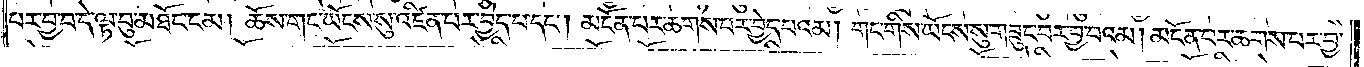པར་བྱ་བ་དེ་ལྟ་བུ་མཐོང་ངམ། ཆོས་གང་ཡོངས་སུ་འཛིན་པར་བྱད་པ་དང༌། མངོན་པར་ཆགས་བར་བྱེད་པའམ། གང་གིས་ཡོངས་སུ་གཟུང་བར་བྱ་བའམ། མངོན་པར་ཆགས་པར་བྱ་
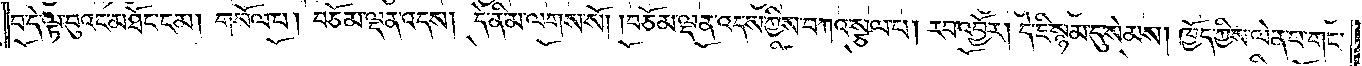བ་དེ་ལྟ་བུའང་མཐོང་ངམ། གསོལ་པ། བཅོམ་ལྡན་འདས། དེ་ནི་མ་ལགས་སོ། །བཅོམ་ལྡན་འདས་ཀྱིས་བཀའ་སྩལ་པ། རབ་འབྱོར། དེ་ཇི་སྙམ་དུ་སེམས། ཁྱོད་ཀྱིས་ལེན་པ་གང་
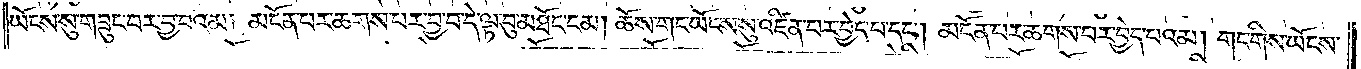ཡོངས་སུ་གཟུང་བར་བྱ་བའམ། མངོན་པར་ཆགས་པར་བྱ་བ་དེ་ལྟ་བུ་མཐོང་ངམ། ཆོས་གང་ཡོངས་སུ་འཛིན་པར་བྱེད་པ་དང༌། མངོན་པར་ཆགས་པར་བྱད་པའམ། གང་གིས་ཡོངས་
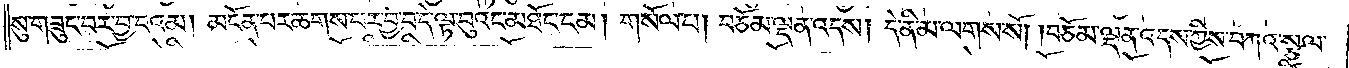སུ་གཟུང་བར་བྱ་བའམ། མངོན་པར་ཆགས་པར་བྱ་བ་དེ་ལྟ་བུའང་མཐོང་ངམ། གསོལ་པ། བཅོམ་ལྡན་འདས། དེ་ནི་མ་ལགས་སོ། །བཅོམ་ལྡན་འདས་ཀྱིས་བཀའ་སྩལ་
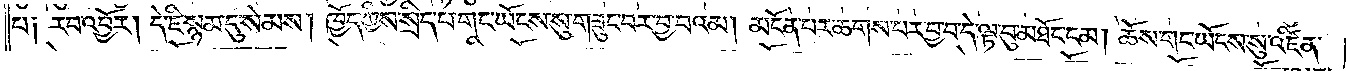པ། རབ་འབྱོར། དེ་ཇི་སྙམ་དུ་སེམས། ཁྱོད་ཀྱིས་སྲིད་པ་གང་ཡོངས་སུ་གཟུང་བར་བྱ་བའམ། མངོན་པར་ཆགས་པར་བྱ་བ་དེ་ལྟ་བུ་མཐོང་ངམ། ཆོས་གང་ཡོངས་སུ་འཛིན་
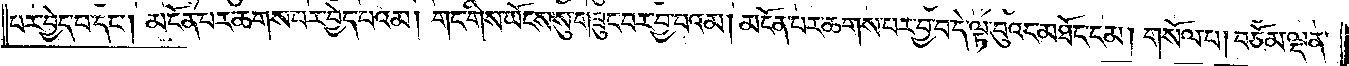པར་བྱེད་པ་དང༌། མངོན་པར་ཆགས་པར་བྱེད་པའམ། གང་གིས་ཡོངས་སུ་གཟུང་བར་བྱ་བའམ། མངོན་པར་ཆགས་པར་བྱ་བ་དེ་ལྟ་བུའང་མཐོང་ངམ། གསོལ་པ། བཅོམ་ལྡན་
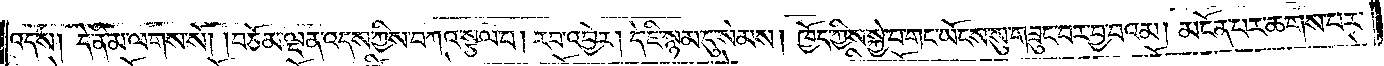འདས། དེ་ནི་མ་ལགས་སོ། །བཅོམ་ལྡན་འདས་ཀྱིས་བཀའ་སྩལ་པ། རབ་འབྱོར། དེ་ཇི་སྙམ་དུ་སེམས། ཁྱོད་ཀྱིས་སྐྱེ་བ་གང་ཡོངས་སུ་གཟུང་བར་བྱ་བའམ། མངོན་པར་ཆགས་པར་
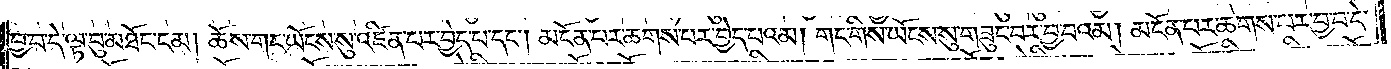བྱ་བ་དེ་ལྟ་བུ་མཐོང་ངམ། ཆོས་གང་ཡོངས་སུ་འཛིན་པར་བྱེད་པ་དང༌། མངོན་པར་ཆགས་པར་བྱེད་པའམ། གང་གིས་ཡོངས་སུ་གཟུང་བར་བྱ་བའམ། མངོན་པར་ཆགས་པར་བྱ་བ་དེ་
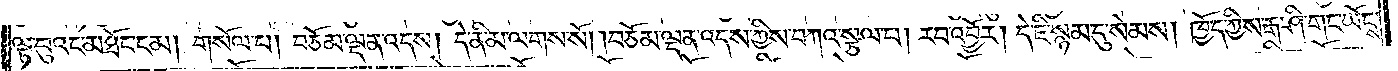ལྟ་བུའང་མཐོང་ངམ། གསོལ་པ། བཅོམ་ལྡན་འདས། དེ་ནི་མ་ལགས་སོ། །བཅོམ་ལྡན་འདས་ཀྱིས་བཀའ་སྩལ་པ། རབ་འབྱོར། དེ་ཇི་སྙམ་དུ་སེམས། ཁྱོད་ཀྱིས་རྒ་ཤི་གང་ཡོངས་
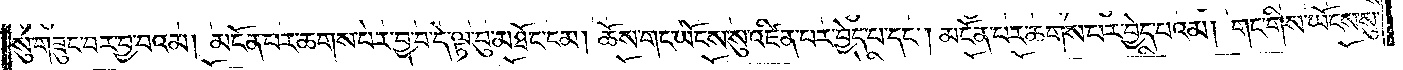སུ་གཟུང་བར་བྱ་བའམ། མངོན་པར་ཆགས་པར་བྱ་བ་དེ་ལྟ་བུ་མཐོང་ངམ། ཆོས་གང་ཡོངས་སུ་འཛིན་པར་བྱེད་པ་དང༌། མངོན་པར་ཆགས་པར་བྱེད་པའམ། གང་གིས་ཡོངས་སུ་
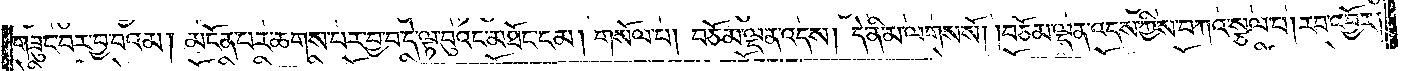གཟུང་བར་བྱ་བའམ། མངོན་པར་ཆགས་པར་བྱ་བ་དེ་ལྟ་བུའང་མཐོང་ངམ། གསོལ་པ། བཅོམ་ལྡན་འདས། དེ་ནི་མ་ལགས་སོ། བཅོམ་ལྡན་འདས་ཀྱིས་བཀའ་སྩལ་པ། རབ་འབྱོར།
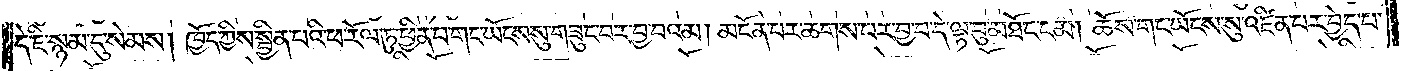དེ་ཇི་སྙམ་དུ་སེམས། ཁྱོད་ཀྱིས་སྦྱིན་པའི་ཕ་རོལ་ཏུ་ཕྱིན་པ་གང་ཡོངས་སུ་གཟུང་བར་བྱ་བའམ། མངོན་པར་ཆགས་པར་བྱ་བ་དེ་ལྟ་བུ་མཐོང་ངམ། ཆོས་གང་ཡོངས་སུ་འཛིན་པར་བྱེད་པ་
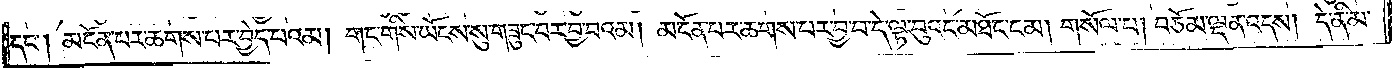དང༌། མངོན་པར་ཆགས་པར་བྱེད་པའམ། གང་གིས་ཡོངས་སུ་གཟུང་བར་བྱ་བའམ། མངོན་པར་ཆགས་པར་བྱ་བ་དེ་ལྟ་བུའང་མཐོང་ངམ། གསོལ་པ། བཅོམ་ལྡན་འདས། དེ་ནི་མ་
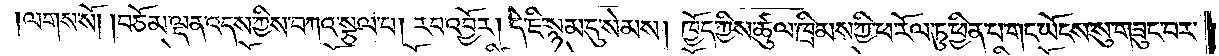ལགས་སོ། །བཅོམ་ལྡན་འདས་ཀྱིས་བཀའ་སྩལ་པ། རབ་འབྱོར། དེ་ཇི་སྙམ་དུ་སེམས། ཁྱོད་ཀྱིས་ཚུལ་ཁྲིམས་ཀྱི་ཕ་རོལ་ཏུ་ཕྱིན་པ་གང་ཡོངས་སུ་གཟུང་བར་
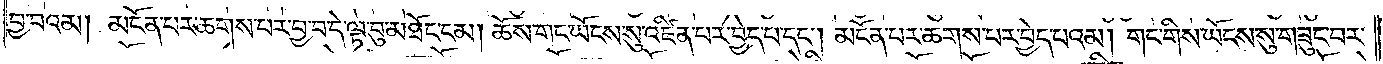བྱ་བའམ། མངོན་པར་ཆགས་པར་བྱ་བ་དེ་ལྟ་བུ་མཐོང་ངམ། ཆོས་གང་ཡོངས་སུ་འཛིན་པར་བྱེད་པ་དང༌། མངོན་པར་ཆགས་པར་བྱེད་པའམ། གང་གིས་ཡོངས་སུ་གཟུང་བར་
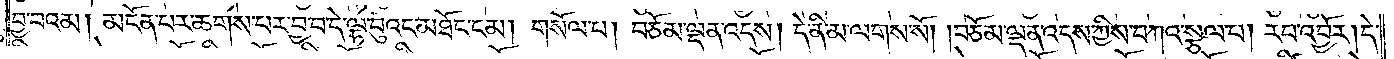བྱ་བའམ། མངོན་པར་ཆགས་པར་བྱ་བ་དེ་ལྟ་བུའང་མཐོང་ངམ། གསོལ་པ། བཅོམ་ལྡན་འདས། དེ་ནི་མ་ལགས་སོ། །བཅོམ་ལྡན་འདས་ཀྱིས་བཀའ་སྩལ་པ། རབ་འབྱོར། དེ་
